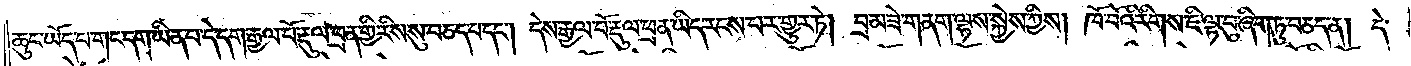ཆུང་ཡོད་པ་གང་དག་ཡིན་པ་དེ་དག་རྒྱལ་པོ་རྡུལ་ཕྲན་གྱི་རིས་སུ་བཅད་པ་དང༌། དེས་རྒྱལ་པོ་རྡུལ་ཕྲན་ཡིད་རངས་པར་གྱུར་ཏེ། བྲམ་ཟེ་གནག་ལྷས་སྐྱེས་ཀྱིས། ཁོ་བོའི་རིགས་ཇི་ལྟ་བུ་ཞིག་ཏུ་བཅད་ན། དེ་
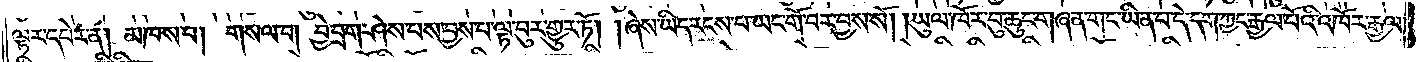ལྟར་དཔེར་ན། མཁས་པ། གསལ་བ། བྱེ་བྲག་ཤེས་པས་བྱས་པ་ལྟ་བུར་གྱུར་ཏོ། །ཞེས་ཡིད་རངས་པ་ཡང་གོ་བར་བྱས་སོ། །ཡུལ་ཁོར་བུ་ཆུང་གཞན་གང་ཡིན་པ་དེ་དག་ཀྱང་རྒྱལ་པོའི་འཁོར་རྒྱལ་
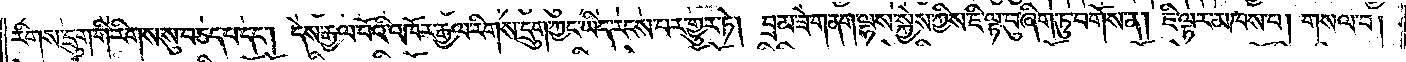རིགས་དྲུག་གི་རིགས་སུ་བཅད་པ་དང༌། དེས་རྒྱལ་པོའི་འཁོར་རྒྱལ་རིགས་དྲུག་ཀྱང་ཡིད་རངས་པར་གྱུར་ཏེ། བྲམ་ཟེ་གནག་ལྷས་སྐྱེས་ཀྱིས་ཇི་ལྟ་བུ་ཞིག་ཏུ་བགོས་ན། ཇི་ལྟར་མཁས་པ། གསལ་བ།
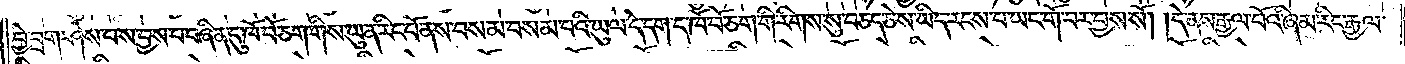བྱེ་བྲག་ཤེས་པས་བྱས་པ་བཞིན་དུ་ཁོ་བོ་ཅག་གིས་ཡུན་རིང་པོ་ནས་བསམ་བསམ་པའི་ཡུལ་དེ་དག་ད་ཁོ་བོ་ཅག་གི་རིགས་སུ་བཅད་ཅེས་ཡིད་རངས་པ་ཡང་གོ་བར་བྱས་སོ། །དེ་ནས་རྒྱལ་པོའི་ཞིམ་རིང་རྒྱལ་
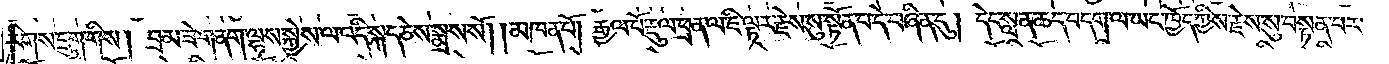རིགས་དྲུག་གིས། བྲམ་ཟེ་གནག་ལྷས་སྐྱེས་ལ་འདི་སྐད་ཅེས་སྨྲས་སོ། །མཁན་པོ། རྒྱལ་པོ་རྡུལ་ཕྲན་ལ་ཇི་ལྟར་རྗེས་སུ་སྟོན་པ་དེ་བཞིན་དུ། དེང་སླན་ཆད་བདག་ལ་ཡང་ཁྱོད་ཀྱིས་རྗེས་སུ་བསྟན་པར་
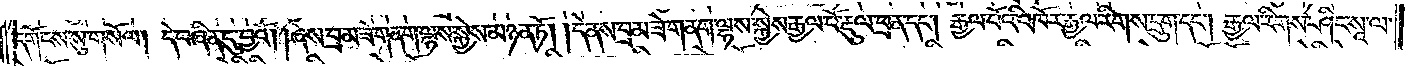དགོངས་སུ་གསོལ། དེ་བཞིན་དུ་བྱའོ། །ཞེས་བྲམ་ཟེ་གནག་ལྷས་སྐྱེས་མཉན་ཏོ། །དེ་ནས་བྲམ་ཟེ་གནག་ལྷས་སྐྱེས་རྒྱལ་པོ་རྡུལ་ཕྲན་དང༌། རྒྱལ་པོའི་འཁོར་རྒྱལ་རིགས་དྲུག་དང༌། རྒྱལ་རིགས་ཤིང་སཱ་ལ་
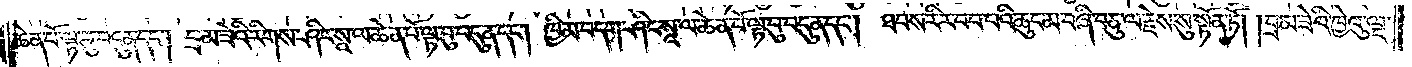ཆེན་པོ་ལྟ་བུ་བདུན་དང༌། བྲམ་ཟེའི་རིགས་ཤིང་སཱ་ལ་ཆེན་པོ་ལྟ་བུ་བདུན་དང༌། ཁྱིམ་བདག་ཤིང་སཱ་ལ་ཆེན་པོ་ལྟ་བུ་བདུན་དང༌། ཐབས་རིར་བབ་པའི་ཆུང་མ་བཞི་བཅུ་ལ་རྗེས་སུ་སྟོན་ཏོ། །བྲམ་ཟེའི་ཁྱེའུ་ལྔ་
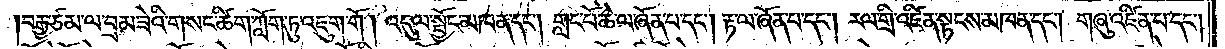བརྒྱ་ཙམ་ལ་བྲམ་ཟེའི་གསང་ཚིག་ཀློག་ཏུ་འཇུག་གོ། འདུལ་སྦྱོང་མཁན་དང༌། གླང་པོ་ཆེ་ལ་ཞོན་པ་དང༌། རྟ་ལ་ཞོན་པ་དང༌། རལ་གྲི་འཛིན་སྟངས་མཁན་དང༌། གཞུ་འཛིན་པ་དང༌།
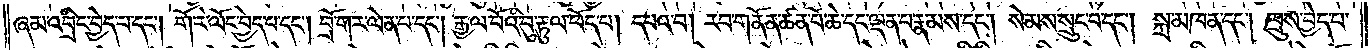ཞམ་འབྲིང་བྱེད་པ་དང༌། གོ་རེ་ལོང་བྱེད་པ་དང༌། བྲོ་གར་ལེན་པ་དང༌། རྒྱལ་པོའི་བུ་རྟུལ་ཕོད་པ། དཔའ་བ། རབ་གནོན་ཚན་པོ་ཆེ་དང་ལྡན་པ་རྣམས་དང༌། སེམས་སྲུང་བ་དང༌། སྐྲ་མཁན་དང༌། ཁྲུས་བྱེད་པ་
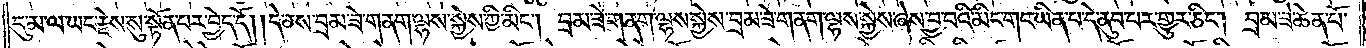དུ་མ་ལ་ཡང་རྗེས་སུ་སྟོན་པར་བྱེད་དོ། །དེ་ནས་བྲམ་ཟེ་གནག་ལྷས་སྐྱེས་ཀྱི་མིང༌། བྲམ་ཟེ་གནག་ལྷས་སྐྱེས་བྲམ་ཟེ་གནག་ལྷས་སྐྱེས་ཞེས་བྱ་བའི་མིང་གང་ཡིན་པ་དེ་ནུབ་པར་གྱུར་ཅིག། བྲམ་ཟེ་ཆེན་པོ་
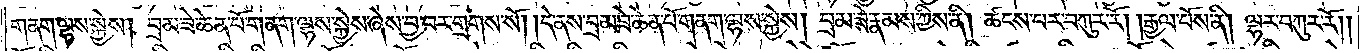གནག་ལྷས་སྐྱེས། བྲམ་ཟེ་ཆེན་པོ་གནག་ལྷས་སྐྱེས་ཞེས་བྱ་བར་གྲགས་སོ། །དེ་ནས་བྲམ་ཟེ་ཆེན་པོ་གནག་ལྷས་སྐྱེས། བྲམ་ཟེ་རྣམས་ཀྱིས་ནི། ཚངས་པར་བཀུར་རོ། །རྒྱལ་པོས་ནི། ལྷར་བཀུར་རོ། །
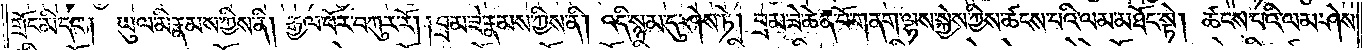གྲོང་མི་དང༌། ཡུལ་མི་རྣམས་ཀྱིས་ནི། རྒྱལ་པོར་བཀུར་རོ། །བྲམ་ཟེ་རྣམས་ཀྱིས་ནི། འདི་སྙམ་དུ་ཤེས་ཏེ། བྲམ་ཟེ་ཆེན་པོ་གནག་ལྷས་སྐྱེས་ཀྱིས་ཚངས་པའི་ལམ་མཐོང་སྟེ། ཚངས་པའི་ལམ་ཤེས་
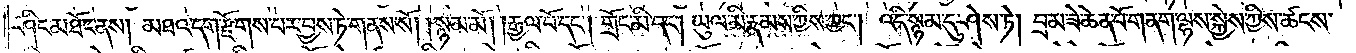ཤིང་མཐོང་ནས། མཐའ་དག་རྫོགས་པར་བྱས་ཏེ་གནས་སོ། །སྙམ་མོ། །རྒྱལ་པོ་དང༌། གྲོང་མི་དང༌། ཡུལ་མི་རྣམས་ཀྱིས་ཀྱང༌། འདི་སྙམ་དུ་ཤེས་ཏེ། བྲམ་ཟེ་ཆེན་པོ་གནག་ལྷས་སྐྱེས་ཀྱིས་ཚངས་
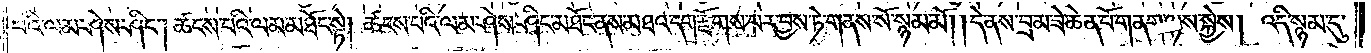པའི་ལམ་ཤེས་ཤིང༌། ཚངས་པའི་ལམ་མཐོང་སྟེ། ཚངས་པའི་ལམ་ཤེས་ཤིང་མཐོང་ནས་མཐའ་དག་རྫོགས་པར་བྱས་ཏེ་གནས་སོ་སྙམ་མོ། །དེ་ནས་བྲམ་ཟེ་ཆེན་པོ་གནག་ལྷས་སྐྱེས། འདི་སྙམ་དུ་
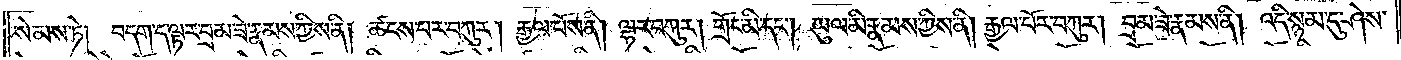སེམས་ཏེ། བདག་ད་ལྟར་བྲམ་ཟེ་རྣམས་ཀྱིས་ནི། ཚངས་པར་བཀུར། རྒྱལ་པོས་ནི། ལྷར་བཀུར། གྲོང་མི་དང༌། ཡུལ་མི་རྣམས་ཀྱིས་ནི། རྒྱལ་པོར་བཀུར། བྲམ་ཟེ་རྣམས་ནི། འདི་སྙམ་དུ་ཤེས་
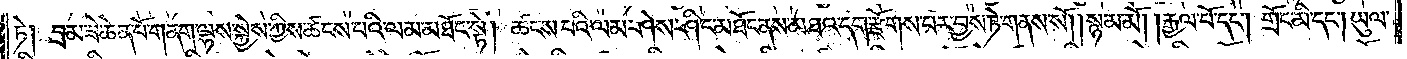ཏེ། བྲམ་ཟེ་ཆེན་པོ་གནག་ལྷས་སྐྱེས་ཀྱིས་ཚངས་པའི་ལམ་མཐོང་སྟེ། ཚངས་པའི་ལམ་ཤེས་ཤིང་མཐོང་ནས་མཐའ་དག་རྫོགས་པར་བྱས་ཏེ་གནས་སོ། །སྙམ་མོ། །རྒྱལ་པོ་དང༌། གྲོང་མི་དང༌། ཡུལ་
